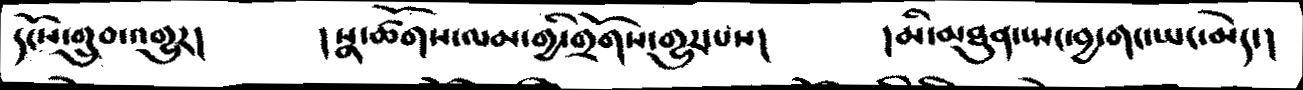དངོས་གྲུབ་འགྱུར།    །སྣ་ཚོགས་ལམ་གྱི་གྲོགས་གྱུར་པས།    །མི་མཐུན་སྤང་བྱ་གང་ཡང་མེད་།
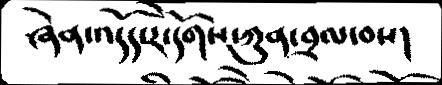ཞེན་འདོད་རེ་དོགས་ཀུན་བྲལ་བས།
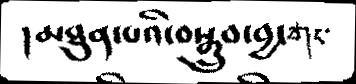།མཐུན་པའི་བསྒྲུབ་བྱ་གང་
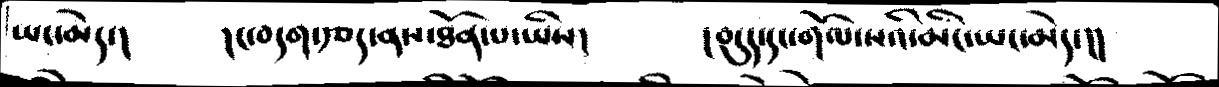ཡང་མེད་།    །ང་བདག་རྩད་ནས་ཐོན་པ་ཡིས།    །བདུད་དང་གོལ་སའིམིང་ཡང་མེད་།།
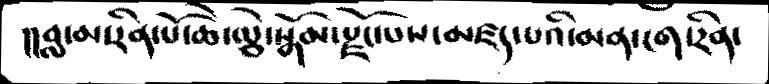།།བླ་མ་རིན་པོ་ཆེ་ལྕེ་སྒོམ་རྫོང་པས་མཛད་པའི་མན་ངག་རིན་
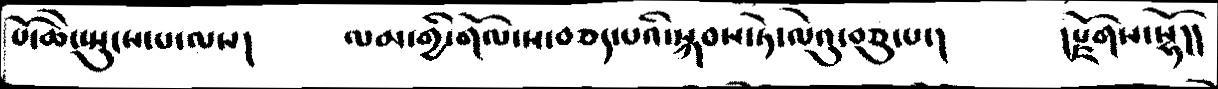པོ་ཆེ་སྤུངས་པ་ལས།    ལམ་གྱི་གོལ་ས་བཅད་པའི་སྐབས་ཏེ་ལེ་འུ་བཅུ་པ་།     །རྫོགས་སྷོ།།
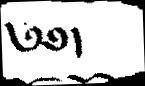༄༅།
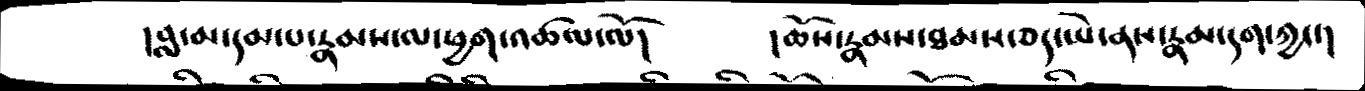།བླ་མ་དམ་པ་རྣམས་ལ་ཕྱག་འཚལ་ལོ།    །ཆོས་རྣམས་ཐམས་ཅད་ཡེ་ནས་རྣམ་དག་ཀྱང་།
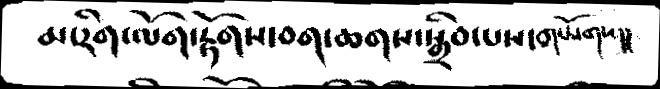མ་རིག་ལོག་རྟོགས་བག་ཆགས་སྒྲིབ་པས་གཡོགས།།
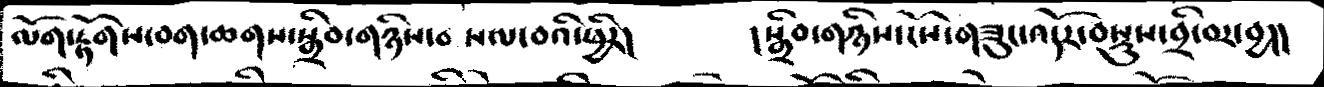ལོག་རྟོགས་བག་ཆགས་སྒྲིབ་གཉིས་བསལ་བའི་ཕྱིར།    །སྒྲིབ་གཉིས་ངོས་གཟུང་འདོར་བསྡུས་བྲི་བར་བྱ།།
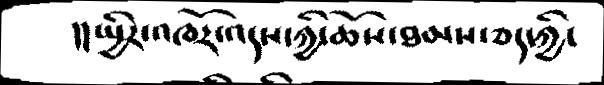།། སྤྱིར་འཁོར་འདས་ཀྱི་ཆོས་ཐམས་ཅད་ཀྱི་
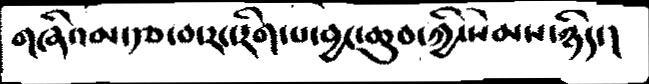གཞིའམ་རྩ་བ་རང་རིག་པ་བྱང་ཆུབ་ཀྱི་སེམས་ཉིད་།
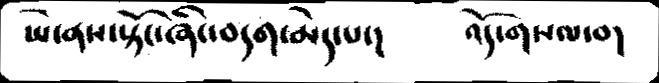ཡེ་ནས་སྟོང་ཞིང་བདག་མེད་པ་།    འོད་གསལ་བ།
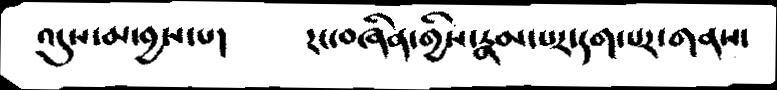འདུས་མ་བྱས་པ།    རང་བཞིན་གྱིས་རྣམ་པར་དག་པར་གནས་
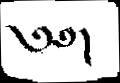༄༅།
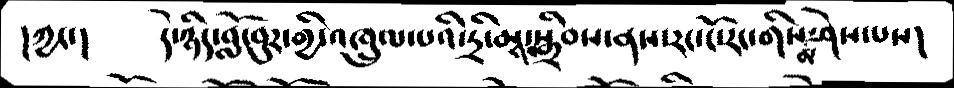།ཀྱང་།     དེ་ཉིད་བློ་བུར་གྱི་འཁྲུལ་པའི་དྲི་མས་བསྒྲིབས་ནས་རང་ངོ་རང་གིས་མ་ཤེས་པས།
